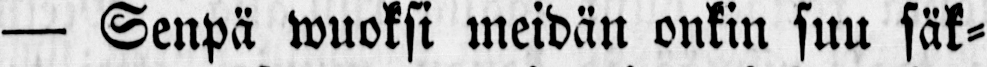— Senpä wuoksi meidän onkin suu säk-
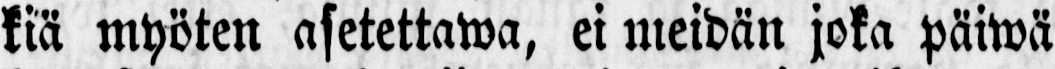kiä myöten asetettawa, ei meidän joka päiwä
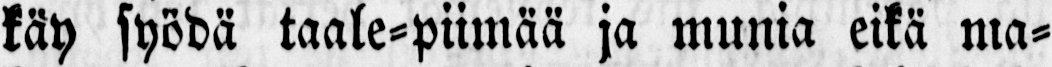käy syödä taale-piimää ja munia eikä ma-
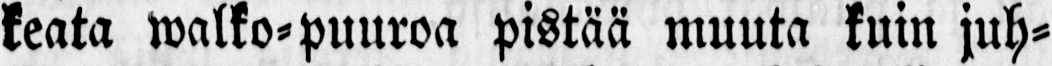keata walko-puuroa pistää muuta kuin juh-
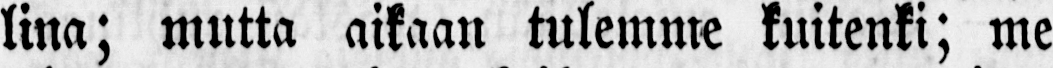lina; mutta aikaan tulemme kuitenki; me
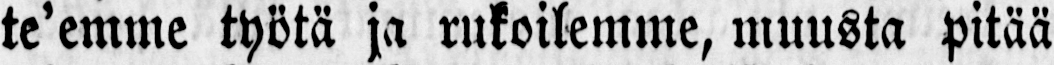te'emme työtä ja rukoilemme, muusta pitää
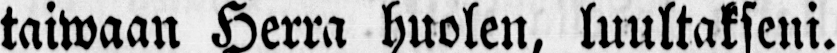taiwaan Herra huolen, luultakseni.
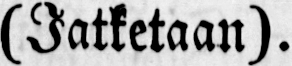(Jatketaan).
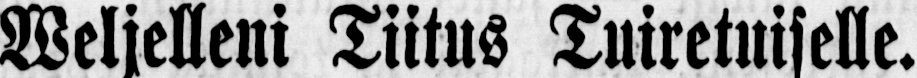Weljelleni Tiitus Tuiretuiselle.
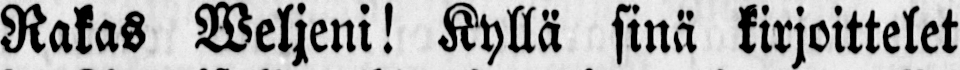Rakas Weljeni! Kyllä sinä kirjoittelet
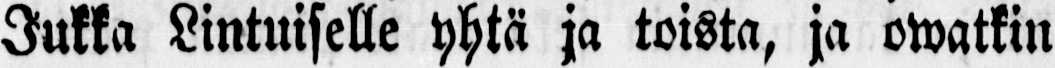Jukka Lintuiselle yhtä ja toista, ja owatkin
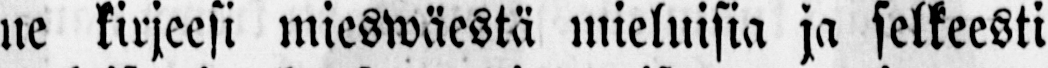ne kirjeesi mieswäestä mieluisia ja selkeesti
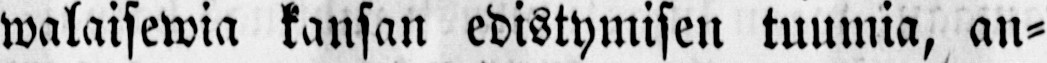walaisewia kansan edistymisen tuumia, an-
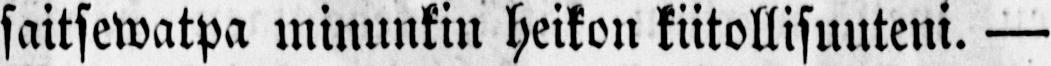saitsewatpa minunkin heikon kiitollisuuteni. —
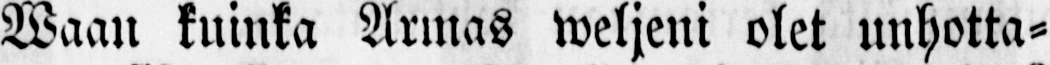Waan kuinka Armas weljeni olet unhotta-
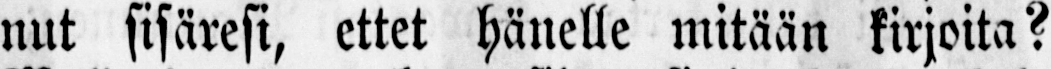nut sisäresi, ettet hänelle mitään kirjoita?
